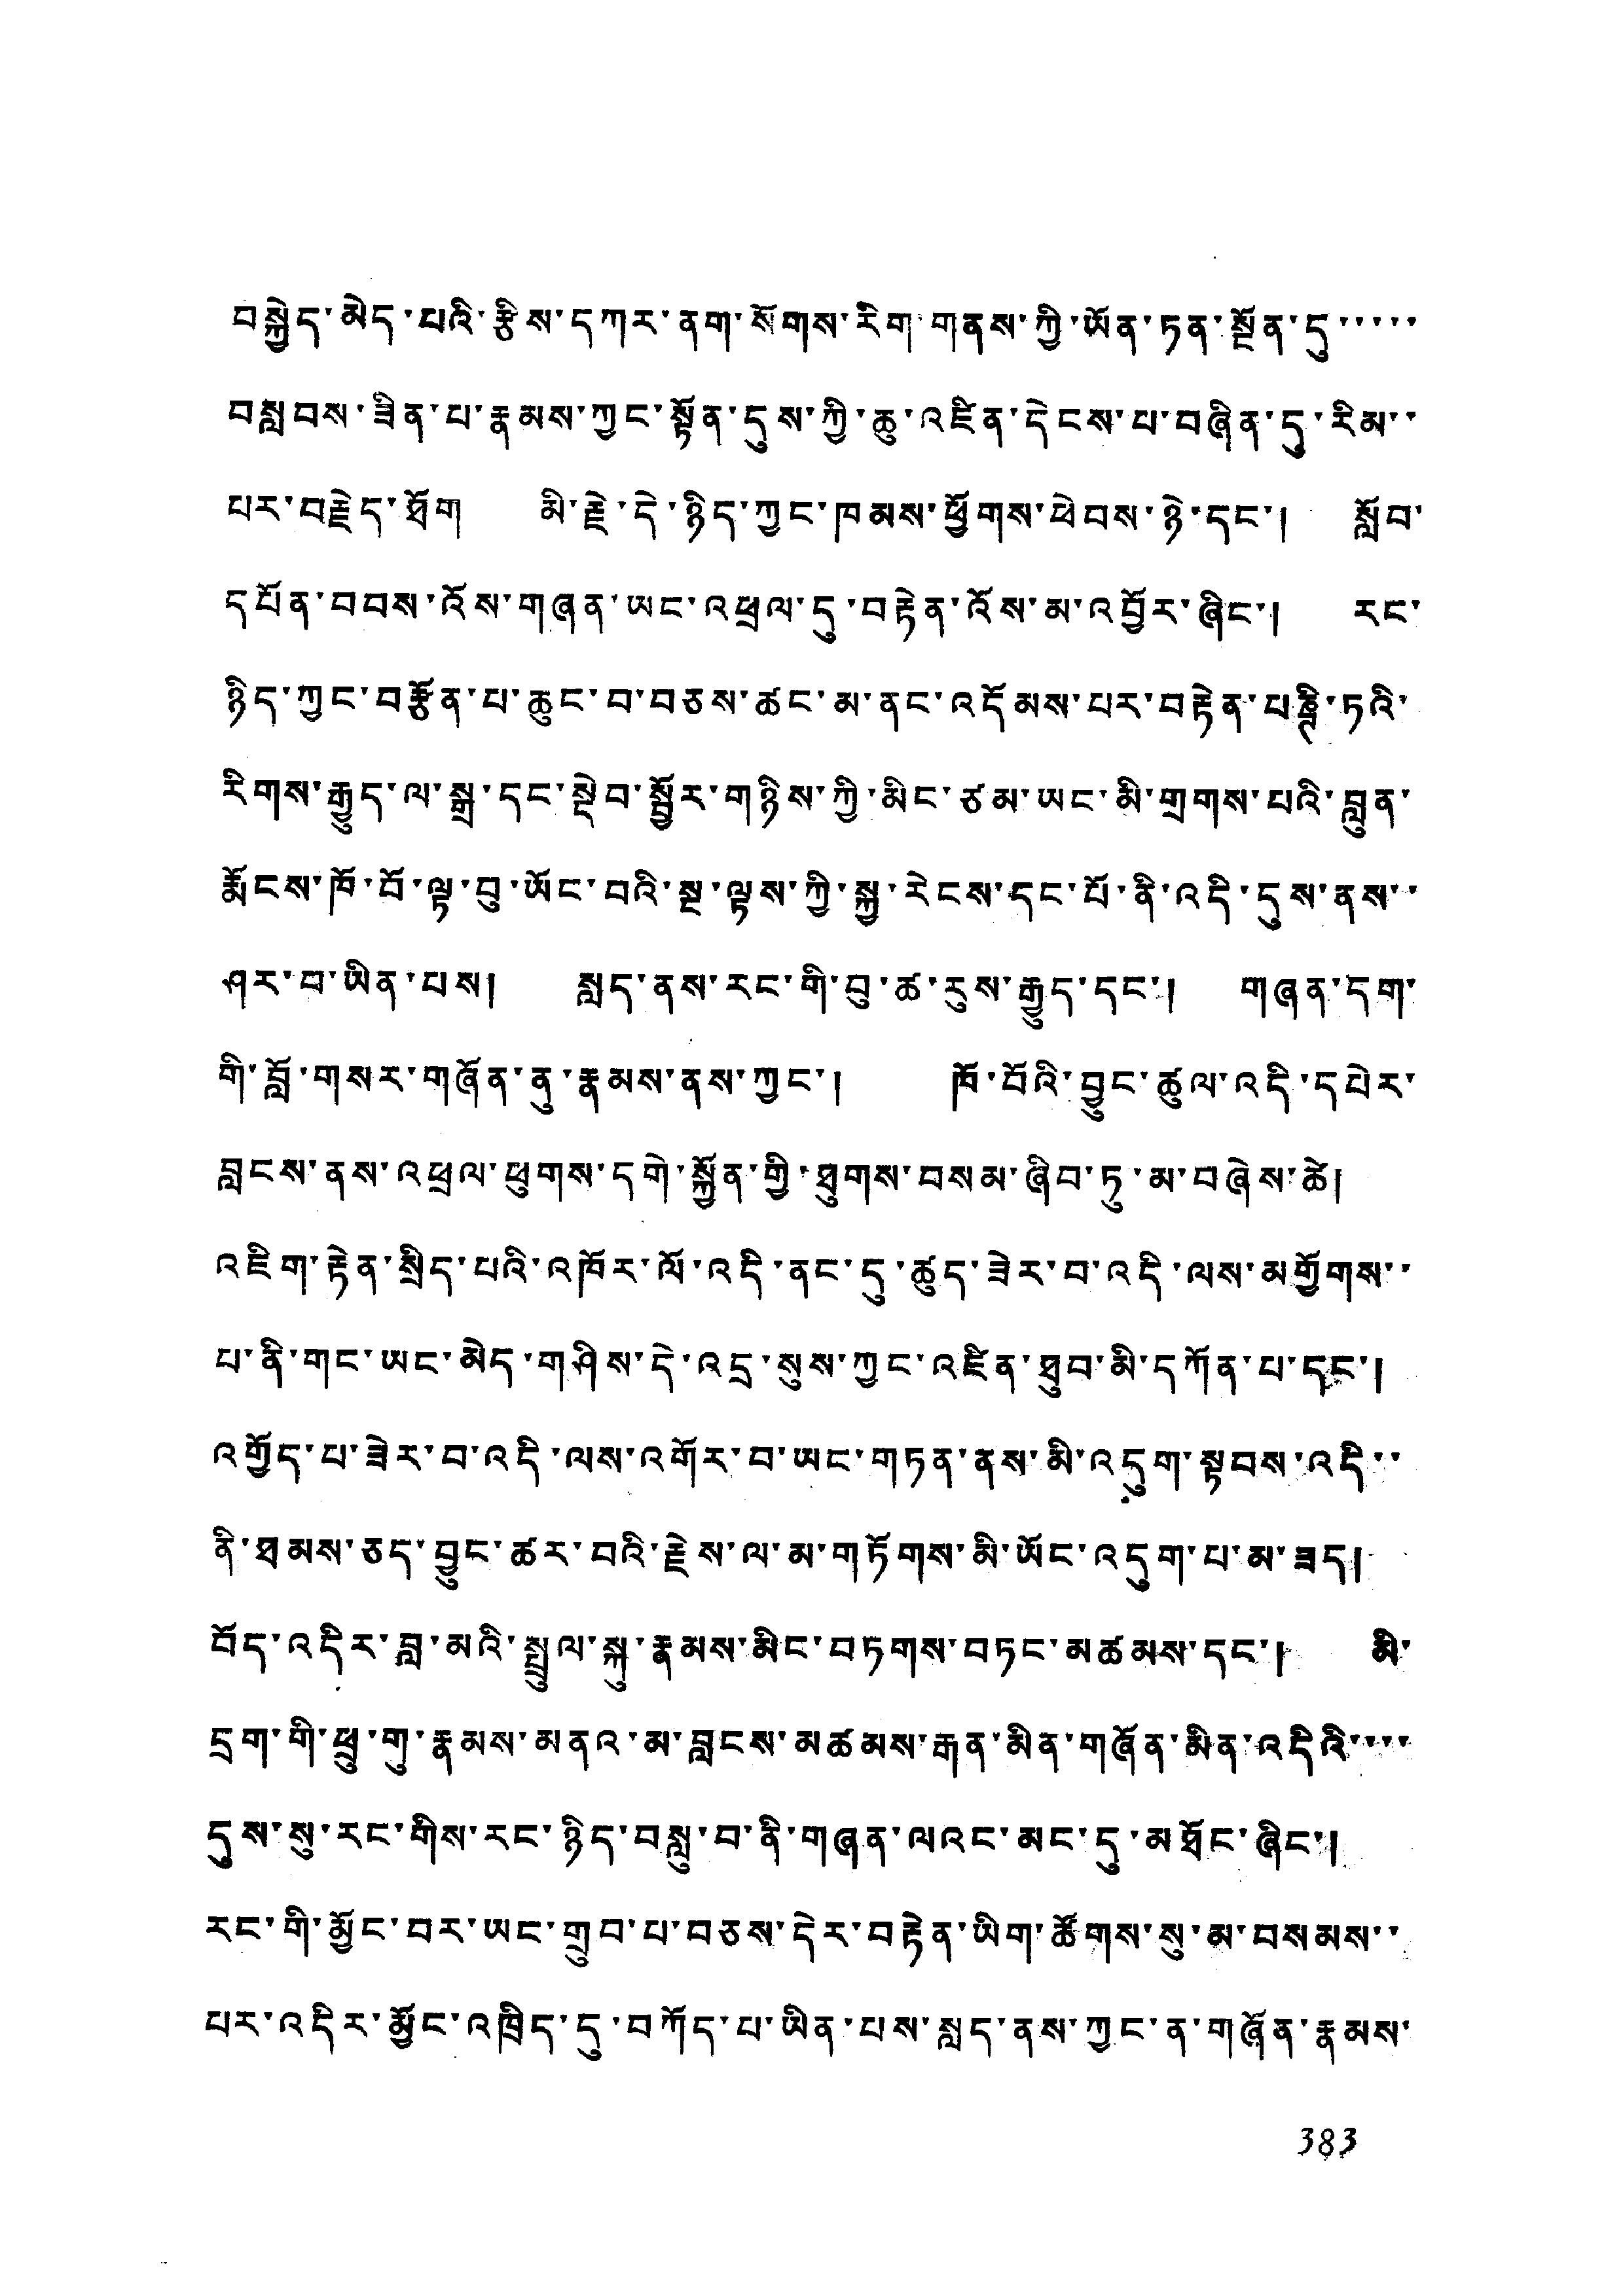བསྐྱེད་མེད་པའི་རྩིས་དཀར་ནག་སོགས་རིག་གནས་ཀྱི་ཡོན་ཏན་སྔོན་དུ་་་་་
བསླབས་ཟིན་པ་རྣམས་ཀྱང་སྟོན་དུས་ཀྱི་ཆུ་འཛིན་དེངས་པ་བཞིན་དུ་རིམ་་
པར་བརྗེད་ཐོག མི་རྗེ་དེ་ཉིད་ཀྱང་ཁམས་ཕྱོགས་ཕེབས་ཉེ་དང་། སློབ་
དཔོན་བབས་འོས་གཞན་ཡང་འཕྲལ་དུ་བརྟེན་འོས་མ་འབྱོར་ཞིང་། རང་
ཉིད་ཀྱང་བརྩོན་པ་ཆུང་བ་བཅས་ཚང་མ་ནང་འདོམས་པར་བརྟེན་པཎྜི་ཏའི་
རིགས་རྒྱུད་ལ་སྒྲ་དང་སྡེབ་སྦྱོར་གཉིས་ཀྱི་མིང་ཙམ་ཡང་མི་གྲགས་པའི་བླུན་
རྨོངས་ཁོ་བོ་ལྟ་བུ་ཡོང་བའི་སྔ་ལྟས་ཀྱི་སྐྱ་རེངས་དང་པོ་ནི་འདི་དུས་ནས་་
ཤར་བ་ཡིན་པས། སླད་ནས་རང་གི་བུ་ཚ་རུས་རྒྱུད་དང་། གཞན་དག་
གི་བློ་གསར་གཞོན་ནུ་རྣམས་ནས་ཀྱང་། ཁོ་བོའི་བྱུང་ཚུལ་འདི་དཔེར་
བླངས་ནས་འཕྲལ་ཕུགས་དགེ་སྐྱོན་གྱི་ཐུགས་བསམ་ཞིབ་ཏུ་མ་བཞེས་ཚེ།
འཇིག་རྟེན་སྲིད་པའི་འཁོར་ལོ་འདི་ནང་དུ་ཚུད་ཟེར་བ་འདི་ལས་མགྱོགས་་
པ་ནི་གང་ཡང་མེད་གཤིས་དེ་འདྲ་སུས་ཀྱང་འཛིན་ཐུབ་མི་དཀོན་པ་དང་།
འགྱོད་པ་ཟེར་བ་འདི་ལས་འགོར་བ་ཡང་གཏན་ནས་མི་འདུག་སྟབས་འདི་་
ནི་ཐམས་ཅད་བྱུང་ཚར་བའི་རྗེས་ལ་མ་གཏོགས་མི་ཡོང་འདུག་པ་མ་ཟད།
བོད་འདིར་བླ་མའི་སྤྲུལ་སྐུ་རྣམས་མིང་བཏགས་བཏང་མཚམས་དང་། མི་
དྲག་གི་ཕྲུ་གུ་རྣམས་མནའ་མ་བླངས་མཚམས་རྒན་མིན་གཞོན་མིན་འདིའི་་་་
དུས་སུ་རང་གིས་རང་ཉིད་བསླུ་བ་ནི་གཞན་ལའང་མང་དུ་མཐོང་ཞིང་།
རང་གི་མྱོང་བར་ཡང་གྲུབ་པ་བཅས་དེར་བརྟེན་ཡིག་ཚོགས་སུ་མ་བསམས་་
པར་འདིར་མྱོང་འཁྲིད་དུ་བཀོད་པ་ཡིན་པས་སླད་ནས་ཀྱང་ན་གཞོན་རྣམས་
383
